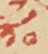༡༠
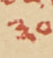༣༠
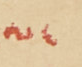ལ་
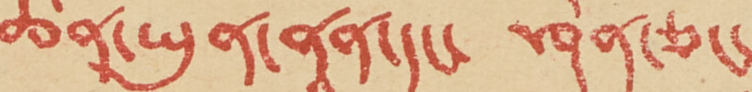ཞིང་ཆེན་ཡུན་ནཱན་དང་ ཤིན་ཅང་
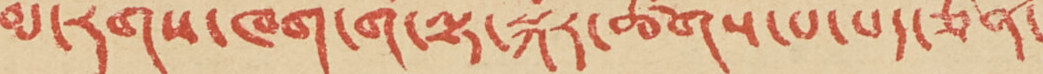མི་རིགས་ཁག་གི་ལྟ་སྐོར་ཚོགས་པ་པད་ཅིན་
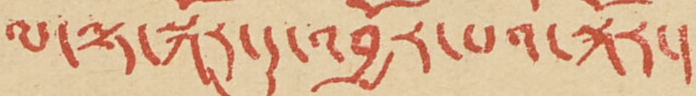ལ་ལྟ་སྐོར་དུ་འབྱོར་པའི་སྐོར་།
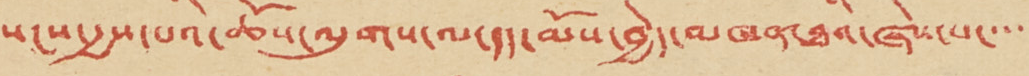སངས་རྒྱས་པའི་ཆོས་ལུགས་ལ་དད་མོས་བྱེད་མཁན་ཐའི་ཞེས་པ་་་་
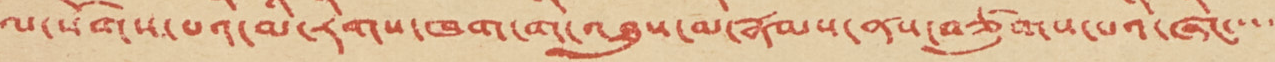ལ་སོགས་པའི་མི་རིགས་ཁག་གི་འཐུས་མི་རྣམས་ནས་བཙུགས་པའི་ཞིང་་་་
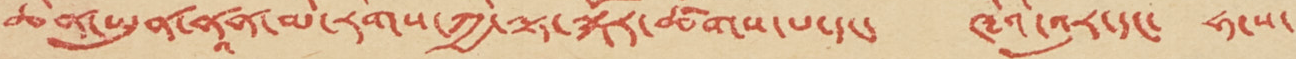ཆེན་ཡུན་ནཱན་མི་རིགས་ཀྱི་ལྟ་སྐོར་ཚོགས་པ་དང་ ཝིའི་འུར་དང་ ཧ་ས་
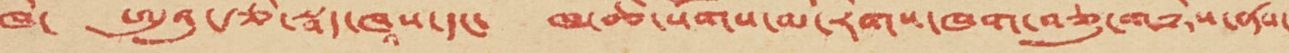ཁེ་ ཨུའུ་རྩི་སྦད་ཁཱས་དང་ ཁ་ཆེ་སོགས་མི་རིགས་ཁག་བཅུ་གཉིས་ནས་
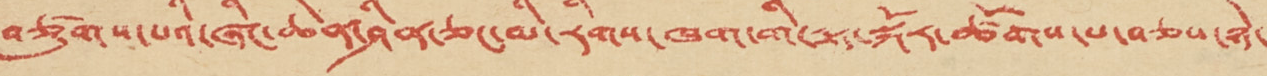བཙུགས་པའི་ཞིང་ཆེན་ཤིན་ཅང་མི་རིགས་ཁག་གི་ལྟ་སྐོར་ཚོགས་པ་བཅས་ཉེ་
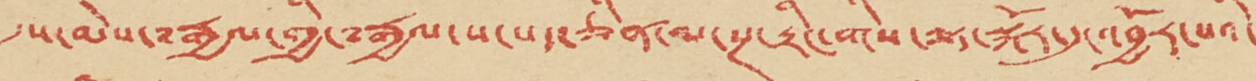དུས་མེས་༸རྒྱལ་གྱི་༸རྒྱལ་ས་པད་ཅིན་ལ་སྔ་རྟིང་གིས་ལྟ་སྐོར་དུ་འབྱོར་པའི་
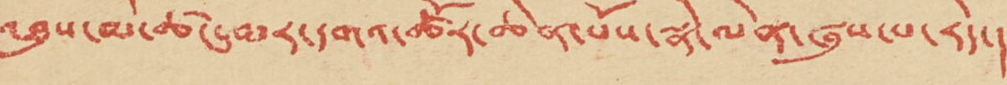འཐུས་མི་ཚང་མར་དགའ་ཚོར་ཆེན་པོས་སྣེ་ལེན་ཞུས་པ་རེད་།
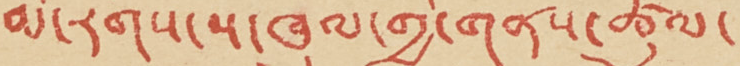མི་རིགས་ས་ཁུལ་གྱི་གནས་ཚུལ་
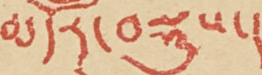མདོར་བསྡུས་།
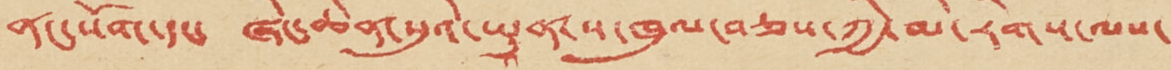• ནང་སོག་དང་ ཞིང་ཆེན་སུའེ་ཡཱུན་ས་ཁུལ་བཅས་ཀྱི་མི་རིགས་ལས་
